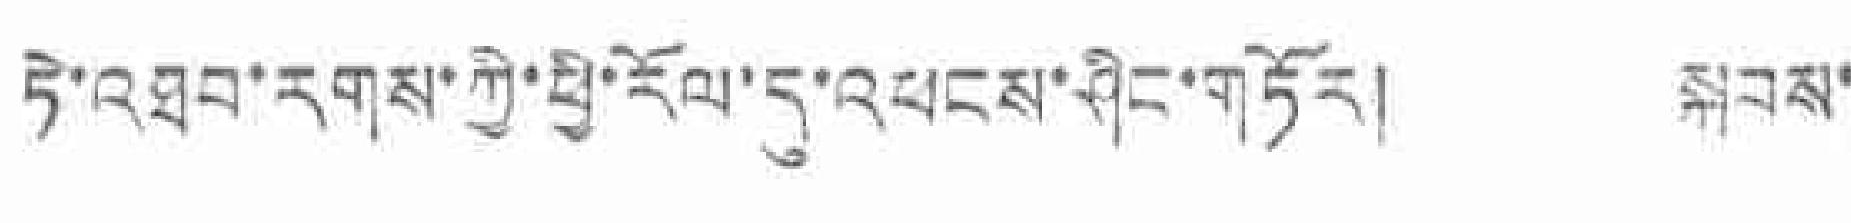ཏེ་འཐབ་རགས་ཀྱི་ཕྱི་རོལ་དུ་འཕངས་ཤིང་གཏོར། སྐབས་
